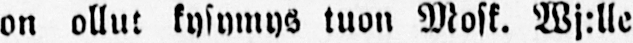on ollut kysymys tuon Mosk. Wj:lle
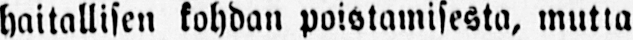haitallisen kohdan poistamisesta, mutta
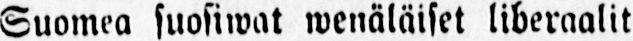Suomea suosiwat wenäläiset liberaalit
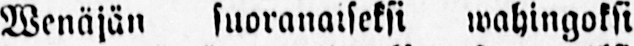wenäjän suoranaiseksi wahingoksi
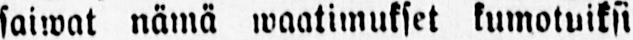saiwat nämä waatimukset kumotuiksi
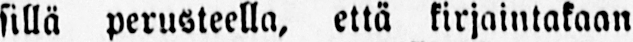sillä perusteella, että kirjaintakaan
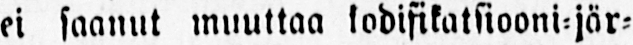ei saanut muuttaa kodisikatsiooni-jär-
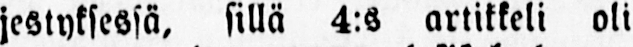jestyksessä, sillä 4:S artikkeli oli
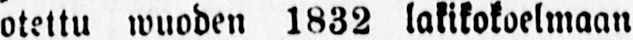otettu wuoden 1832 lakikokoelmaan
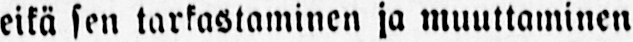eikä sen tarkastaminen ja muuttaminen
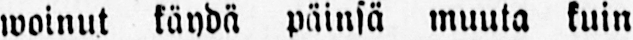woinut käydä päinsä muuta kuin
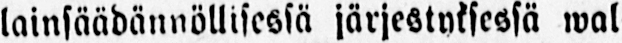lainsäädännöllisessä järjestyksessä wal-
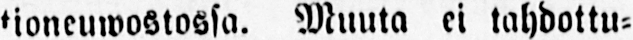tioneuwostossa. Muuta ei tahdottu-
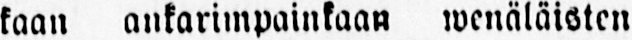kaan ankarimpainkaan wenäläisten
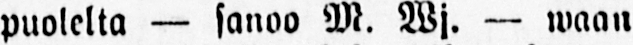puolelta — sanoo M. Wj. — waan
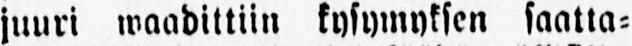juuri waadittiin kysymyksen saatta-
